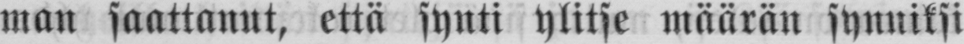man saattanut, että synti ylitse määrän synniksi
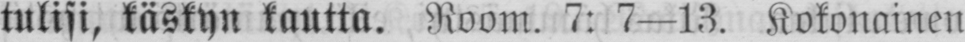tulisi, käskyn kautta. Room. 7: 7 —13. Kokonainen
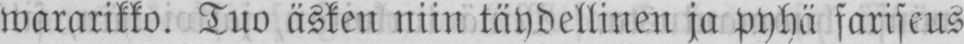wararikko. Tuo äsken niin täydellinen ja pyhä fariseus
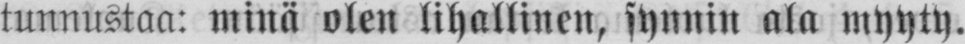tunnustaa: minä olen lihallinen, synnin ala myyty.
